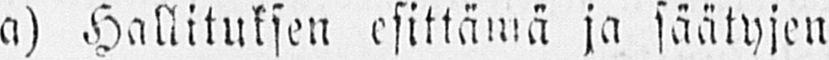a)Hallituksen esittämä ja säätyjen
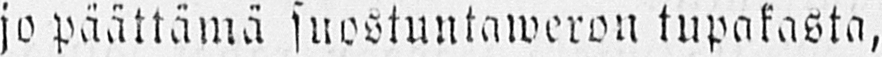jo päättämä suostuntaweron tupakasta,
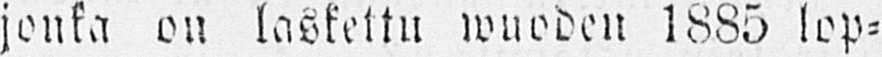jonka on laskettu wuoden 1885 lop-
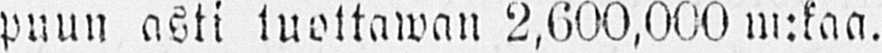puun asti tuottawan 2,600,000 m:kaa.
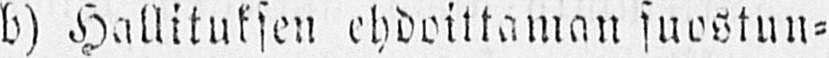b)Hallituksen ehdoittaman suostun-
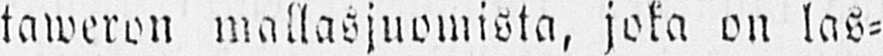taweron mallasjuomista, joka on las-
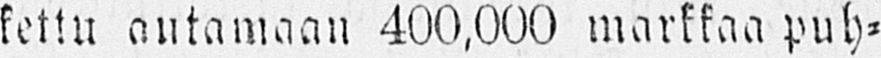kettu antamaan 400,000 markkaa puh-
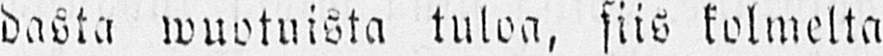dasta wuotuista tuloa, siis kolmelta
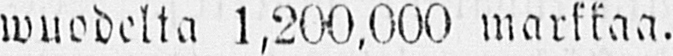wuodelta 1,200,000 markkaa.
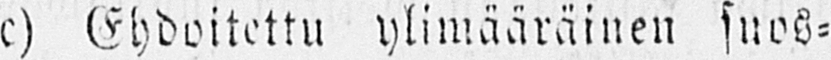e)Ehdoitettu ylimääräinen suos-
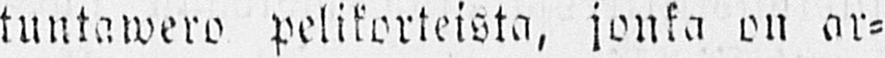tuntawero pelikorteista, jonka on ar-
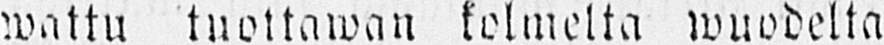wattu tuottawan kolmelta wuodelta
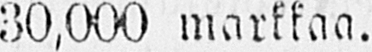30,000 markkaa.
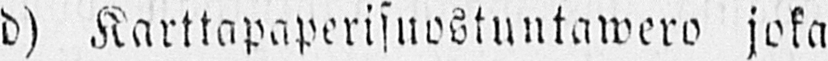d) Karttapaperisuostuntawero joka
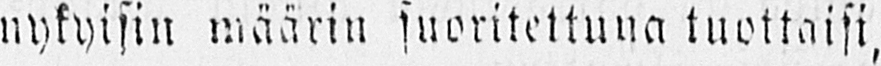nykyisin wäärin suoritettuna tuottaisi,
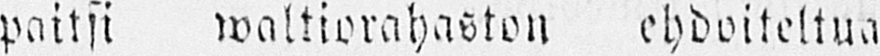paitsi waltiorahaston ehdoiteltua
